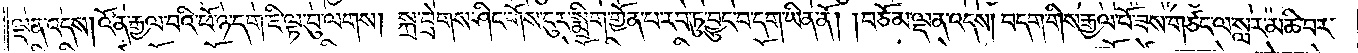ལྡན་འདས། འོ་ན་རྒྱལ་བའི་ཕོ་ཉ་དག་ཇི་ལྟ་བུ་ལགས། སྐྲ་བྲེགས་ཤིང་གོས་ངུར་སྨྲིག་གྱོན་པ་རབ་ཏུ་བྱུང་བ་དག་ཡིན་ནོ། །བཅོམ་ལྡན་འདས། བདག་གིས་རྒྱལ་པོ་ཟས་གཙང་ལ་སླར་མཆི་བར་
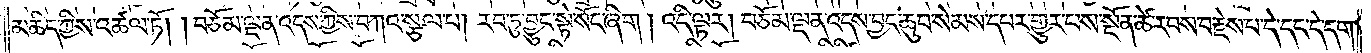མཆིད་ཀྱིས་འཚལ་ཏོ། །བཅོམ་ལྡན་འདས་ཀྱིས་བཀའ་སྩལ་པ། རབ་ཏུ་བྱུང་སྟེ་སོང་ཞིག། འདི་ལྟར། བཅོམ་ལྡན་འདས་བྱང་ཆུབ་སེམས་དཔར་གྱུར་པས་སྔོན་ཚེ་རབས་བརྗེས་པ་དེ་དང་དེ་དག་
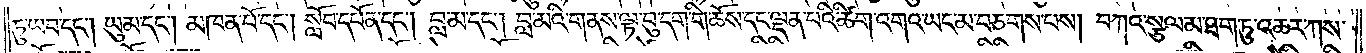ཏུ་ཡབ་དང༌། ཡུམ་དང༌། མཁན་པོ་དང༌། སློབ་དཔོན་དང༌། བླ་མ་དང༌། བླ་མའི་གནས་ལྟ་བུ་དག་གི་ཆོས་དང་ལྡན་པའི་ཚིག་འགའ་ཡང་མ་བཅགས་པས། བཀའ་སྩལ་མ་ཐག་ཏུ་འཆར་ཀས་
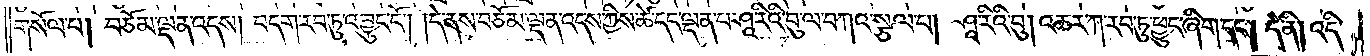གསོལ་པ། བཅོམ་ལྡན་འདས། བདག་རབ་ཏུ་འབྱུང་ངོ༌། །དེ་ནས་བཅོམ་ལྡན་འདས་ཀྱིས་ཚེ་དང་ལྡན་པ་ཤཱ་རིའི་བུ་ལ་བཀའ་སྩལ་པ། ཤཱ་རིའི་བུ། འཆར་ཀ་རབ་ཏུ་ཕྱུང་ཞིག་དང༌། དེ་ནི། འདི་
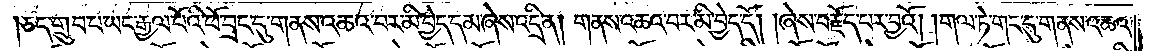ཅད་གྲུབ་པ་ཡང་རྒྱལ་པོའི་ཕོ་བྲང་དུ་གནས་འཆའ་བར་མི་བྱེད་དམ་ཞེས་འདྲི་ན། གནས་འཆའ་བར་མི་བྱེད་དོ། །ཞེས་བརྗོད་པར་བྱའོ། །གལ་ཏེ་གང་དུ་གནས་འཆའ་
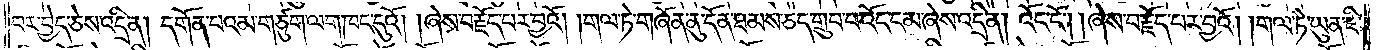བར་བྱེད་ཅེས་འདྲི་ན། དགོན་པའམ་གཙུག་ལག་ཁང་དུའོ། །ཞེས་བརྗོད་པར་བྱའོ། །གལ་ཏེ་གཞོན་ནུ་དོན་ཐམས་ཅད་གྲུབ་པ་འོང་ངམ་ཞེས་འདྲི་ན། འོང་ངོ༌། །ཞེས་བརྗོད་པར་བྱའོ། །གལ་ཏེ་ཡུན་ཇི་
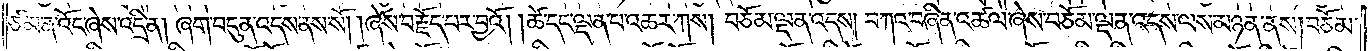ཙམ་ན་འོང་ཞེས་འདྲི་ན། ཞག་བདུན་འདས་ནས་སོ། །ཞེས་བརྗོད་པར་བྱའོ། །ཚེ་དང་ལྡན་པ་འཆར་ཀས། བཅོམ་ལྡན་འདས། བཀའ་བཞིན་འཚལ་ཞེས་བཅོམ་ལྡན་འདས་ལས་མཉན་ནས། བཅོམ་
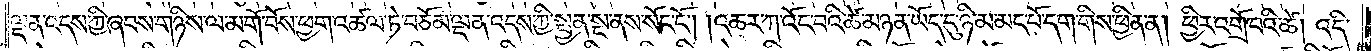ལྡན་འདས་ཀྱི་ཞབས་གཉིས་ལ་མགོ་བོས་ཕྱག་འཚལ་ཏེ་བཅོམ་ལྡན་འདས་ཀྱི་སྤྱན་སྔ་ནས་སོང་ངོ༌། །འཆར་ཀ་འོང་བའི་ཚེ་མཉན་ཡོད་དུ་ཉི་མ་མང་པོ་དག་གིས་ཕྱིན་ན། ཕྱིར་འགྲོ་བའི་ཚེ། འདི་
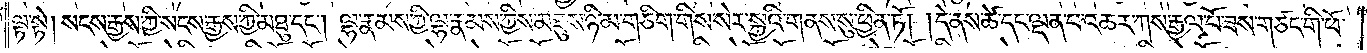ལྟ་སྟེ། སངས་རྒྱས་ཀྱི་སངས་རྒྱས་ཀྱི་མཐུ་དང༌། ལྷ་རྣམས་ཀྱི་ལྷ་རྣམས་ཀྱིས་མཐུས་ཉི་མ་གཅིག་གིས་སེར་སྐྱའི་གནས་སུ་ཕྱིན་ཏོ། །དེ་ནས་ཚེ་དང་ལྡན་པ་འཆར་ཀས་རྒྱལ་པོ་ཟས་གཙང་གི་ཕོ་
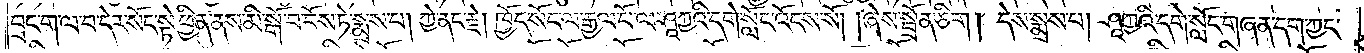བྲང་ག་ལ་བ་དེར་སོང་སྟེ་ཕྱིན་ནས་མི་སྒོ་བ་བོས་ཏེ་སྨྲས་པ། ཀྱེ་ནང་རྗེ། ཁྱོད་སོང་ལ་རྒྱལ་པོ་ལ་ཤཱཀྱའི་དགེ་སློང་འོངས་སོ། །ཞེས་སྦྲོན་ཅིག། དེས་སྨྲས་པ། ཤཱཀྱའི་དགེ་སློང་གཞན་དག་ཀྱང་
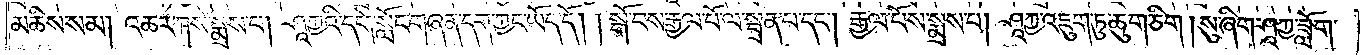མཆིས་སམ། འཆར་ཀས་སྨྲས་པ། ཤཱཀྱའི་དགེ་སློང་གཞན་དག་ཀྱང་ཡོད་དོ། །སྒོ་བས་རྒྱལ་པོ་ལ་སྦྲན་པ་དང༌། རྒྱལ་པོས་སྨྲས་པ། ཤཱཀྱ་འཇུག་ཏུ་ཆུག་ཅིག །སུ་ཞིག་ཤཱཀྱ་ཟློག་
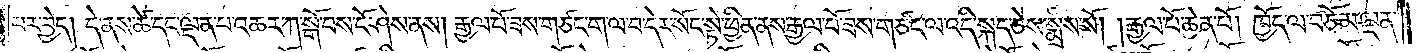པར་བྱེད། དེ་ནས་ཚེ་དང་ལྡན་པ་འཆར་ཀ་སྒོ་བས་ངོ་ཤེས་ནས། རྒྱལ་པོ་ཟས་གཙང་ག་ལ་བ་དེར་སོང་སྟེ་ཕྱིན་ནས་རྒྱལ་པོ་ཟས་གཙང་ལ་འདི་སྐད་ཅེས་སྨྲས་སོ། །རྒྱལ་པོ་ཆེན་པོ། ཁྱོད་ལ་བཅོམ་ལྡན་
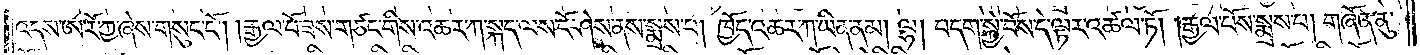འདས་ཨ་རོ་ཀྱ་ཞེས་གསུང་ངོ༌། །རྒྱལ་པོ་ཟས་གཙང་གིས་འཆར་ཀ་སྐད་ལས་ངོ་ཤེས་ནས་སྨྲས་པ། ཁྱོད་འཆར་ཀ་ཡིན་ནམ། ལྷ། བདག་སྐྱེ་བོས་དེ་ལྟར་འཚལ་ཏོ། །རྒྱལ་པོས་སྨྲས་པ། གཞོན་ནུ་
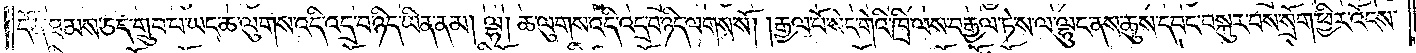དོན་ཐམས་ཅད་གྲུབ་པ་ཡང་ཆ་ལུགས་འདི་འདྲ་བ་ཉིད་ཡིན་ནམ། ལྷ། ཆ་ལུགས་འདི་འདྲ་བ་ཉིད་ལགས་སོ། །རྒྱལ་པོ་སེང་གེའི་ཁྲི་ལས་བརྒྱལ་ཏེ་ས་ལ་ལྷུང་ནས་ཆུས་དབང་བསྐུར་བས་སྲོག་ཕྱིར་འོངས་
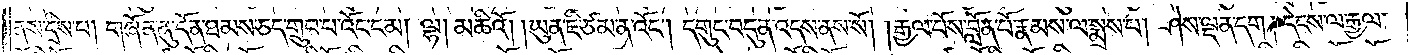ནས་དྲིས་པ། གཞོན་ནུ་དོན་ཐམས་ཅད་གྲུབ་པ་འོང་ངམ། ལྷ། མཆིའོ། །ཡུན་ཇི་ཙམ་ན་འོང༌། དགུང་བདུན་འདས་ནས་སོ། །རྒྱལ་པོས་བློན་པོ་རྣམས་ལ་སྨྲས་པ། ཤེས་ལྡན་དག །དེངས་ལ་རྒྱལ་
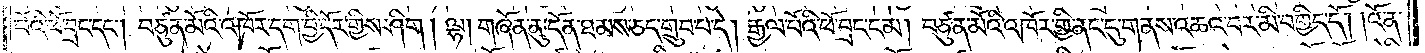པོའི་ཕོ་བྲང་དང༌། བཙུན་མོའི་འཁོར་དག་བྱི་དོར་གྱིས་ཤིག། ལྷ། གཞོན་ནུ་དོན་ཐམས་ཅད་གྲུབ་པ་དེ། རྒྱལ་པོའི་ཕོ་བྲང་ངམ། བཙུན་མོའི་འཁོར་གྱི་ནང་དུ་གནས་འཆའ་བར་མི་བགྱིད་དོ། །འོ་ན་
